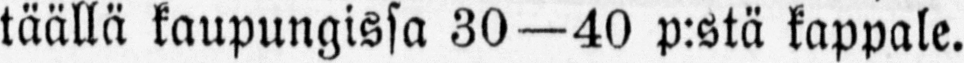täällä kaupungissa 30—40 p:stä kappale.
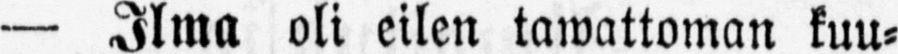— Ilma oli eilen tawattoman kuu-
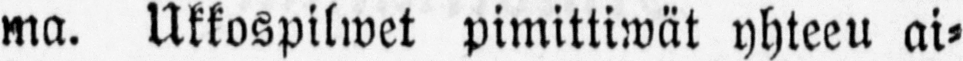ma. Ukkospilwet pimittiwät yhteen ai-
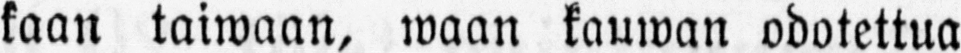kaan taiwaan, waan kauwan odotettua
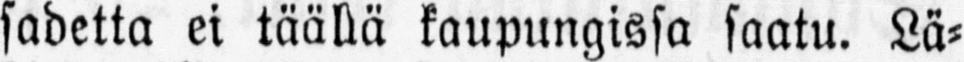sadetta ei täällä kaupungissa saatu. Lä-
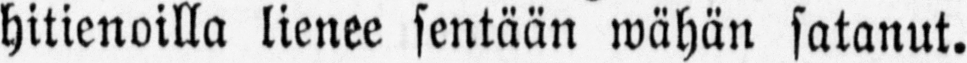hitienoilla lienee sentään wähän satanut.
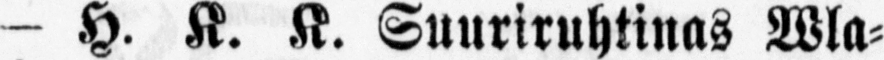- H. K. K. Suuriruhtinas Wla-
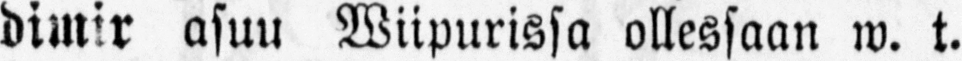dimir asuu Wiipurissa ollessaan w. t.
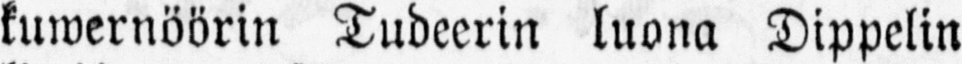kuwernöörin Tudeerin luona Dippelin
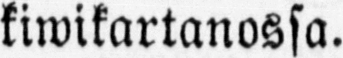kiwikartanossa.
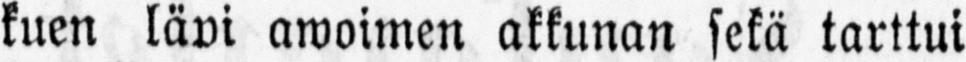kuen lävi awoimen akkunan sekä tarttui
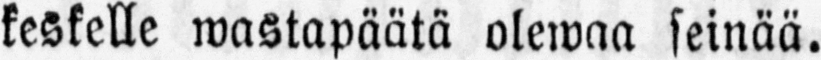keskelle wastapäätä olewaa seinää.
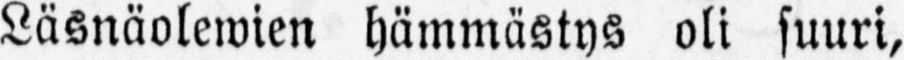Läsnäolewien hämmästys oli suuri,
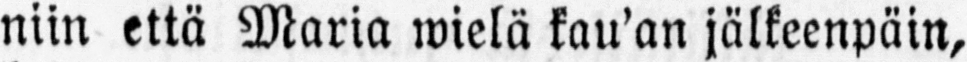niin että Maria wielä kau'an jälkeenpäin,
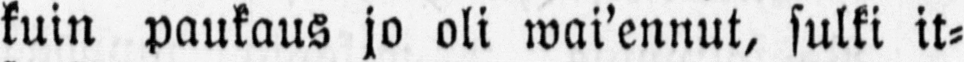kuin paukaus jo oli wai'ennut, sulki it-
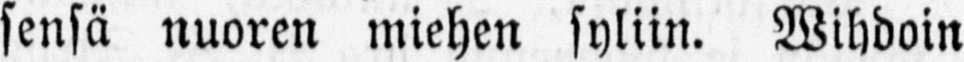sensä nuoren miehen syliin. Wihdoin
